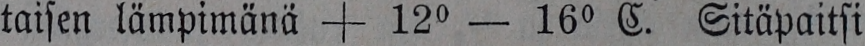taisen lämpimänä + 12° — 16° C. Sitäpaitsi
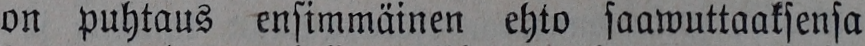on puhtaus ensimmäinen ehto saawuttaaksensa
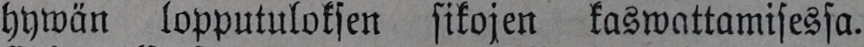hywän lopputuloksen sikojen kaswattamisessa.
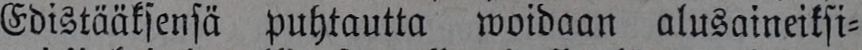Edistääksensä puhtautta woidaan alusaineiksi-
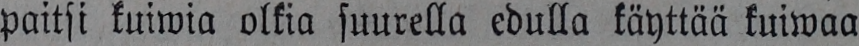paitsi kuiwia olkia suurella edulla käyttää kuiwaa
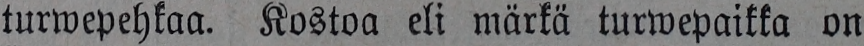turwepehkaa. Kostoa eli märkä turwepaikka on
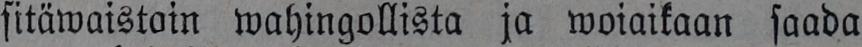sitäwaistain wahingollista ja woiaikaan saada
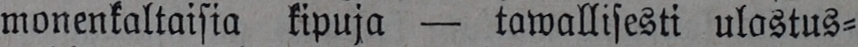monenkaltaisia kipuja — tawallisesti ulastus-
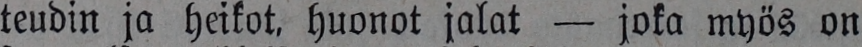teudin ja heikot, huonot jalat — joka myös on
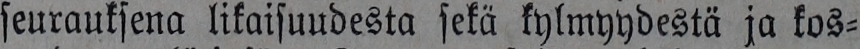seurauksena likaisuudesta sekä kylmyydestä ja kos-
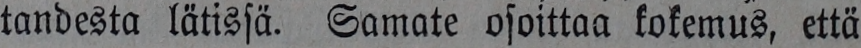tandesta lätissä. Samate osoittaa kokemus, että
